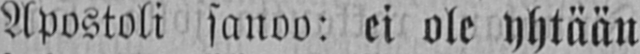Apostoli sanoo: ei ole yhtään
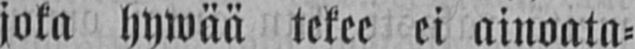joka hywää tekee ei ainoata-
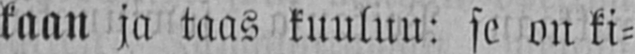kaan ja taas kuuluu: se on ki-
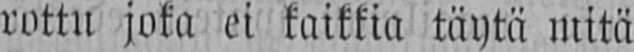rottu joka ei kaikkia täytä mitä
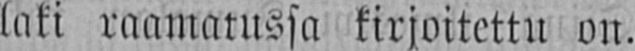laki raamatussa kirjoitettu on.
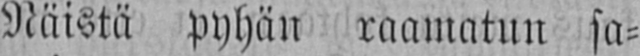Näistä pyhän raamatun sa-
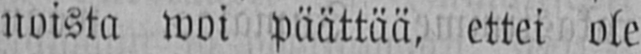noista woi päättää, ettei ole
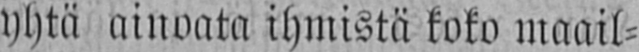yhtä ainoata ihmistä koko maail-
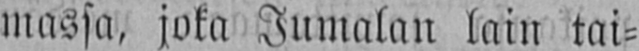massa, joka Jumalan lain tai-
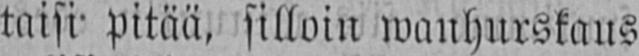taisi pitää, silloin wanhurskaus
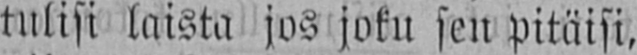tulisi laista jos joku sen pitäisi,
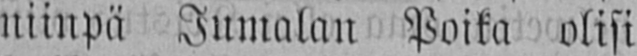niinpä Jumalan Poika olisi
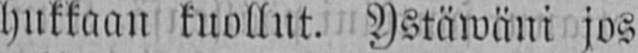hukkaan kuollut. Ystäwäni jos
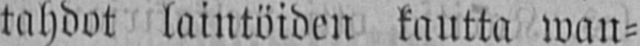tahdot laintöiden kautta wan-
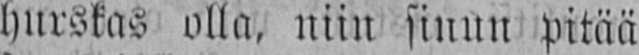hurskas olla, niin sinun pitää
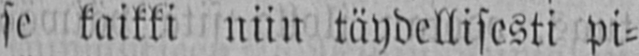se kaikki niin täydellisesti pi-
